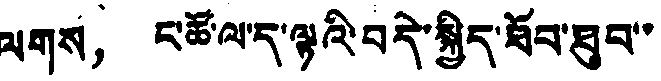ལགས， ང་ཚོ་ལ་ད་ལྟའི་བདེ་སྐྱིད་ཐོབ་ཐུབ་་
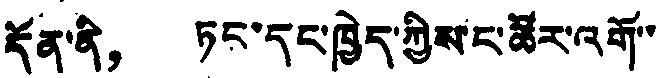དོན་ནི， ཏང་དང་ཁྱེད་ཀྱིས་ང་ཚོར་འགོ་་
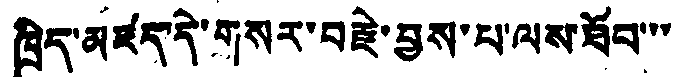ཁྲིད་མཛད་དེ་གསར་བརྗེ་བྱས་པ་ལས་ཐོབ་་་
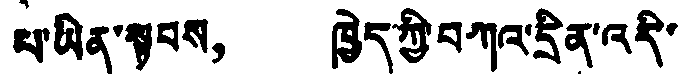པ་ཡིན་སྟབས， ཁྱེད་ཀྱི་བཀའ་དྲིན་འདི་
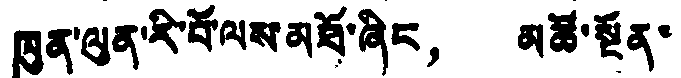ཁུན་ལུན་རི་བོ་ལས་མཐོ་ཞིང， མཚོ་སྔོན་
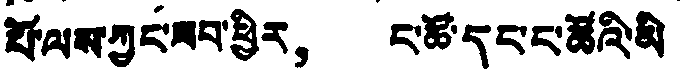པོ་ལས་ཀྱང་ཟབ་ཕྱིར， ང་ཚོ་དང་ང་ཚོའི་མི
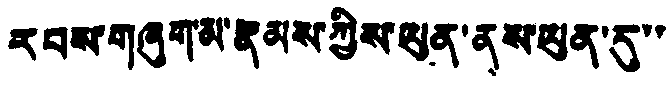རབས་གཞུགམ་རྣམས་ཀྱིས་ཡུན་ནས་ཡུན་དུ་་་
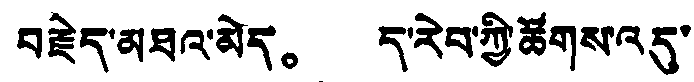བརྗེད་མཐའ་མེད。 ད་རེབ་ཀྱི་ཚོགས་འདུ་
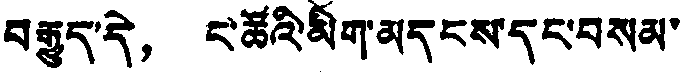བརྒྱུད་དེ， ང་ཚོའི་མིག་མདངས་དང་བསམ་
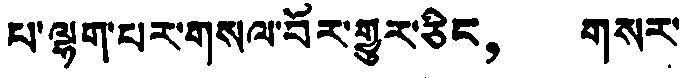པ་ལྷག་པར་གསལ་བོར་གྱུར་ཅིང， གསར་
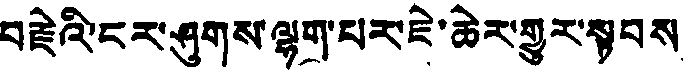བརྗེའི་ངར་ཤུགས་ལྷག་པར་ཇེ་ཆེར་གྱུར་སྟབས，
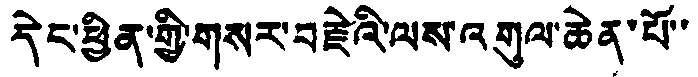དེང་ཕྱིན་གྱི་གསར་བརྗེའི་ལས་འགུལ་ཆེན་པོ་་
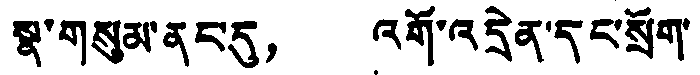སྣ་གསུམ་ནང་དུ， འགོ་འདྲེན་དང་སྲོག་
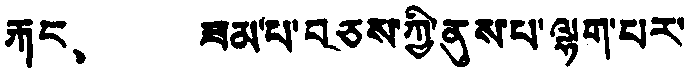རྐང、 ཟམ་པ་བཅས་ཀྱི་ནུས་པ་ལྷག་པར་
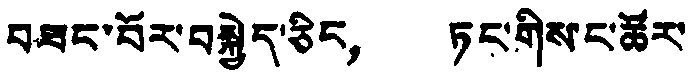བཟང་བོར་བསྐྱེད་ཅིང， ཏང་གིས་ང་ཚོར་
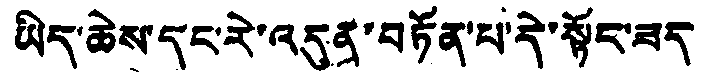ཡིད་ཆེས་དང་རེ་འདུན་བཏོན་པ་དེ་སྟོང་ཟད།
